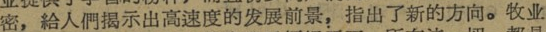密，給人們揭示出高速度的发展前景，指出了新的方向。牧业
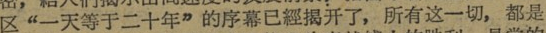区“一天等于二十年”的序幕已經揭开了，所有这一切，都是
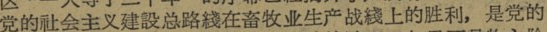党的社会主义建設总路綫在畜牧业生产战綫上的胜利，是党的
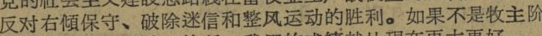反对右傾保守、破除迷信和整风运动的胜利。如果不是牧主阶
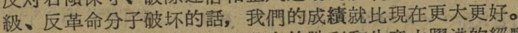級、反革命分子破坏的話，我們的成績就比現在更大更好。
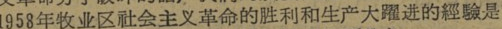1958年牧业区社会主义革命的胜利和生产大躍进的經验是
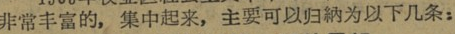非常丰富的，集中起来，主要可以归納为以下几条：
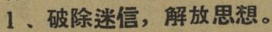1、破除迷信，解放思想。
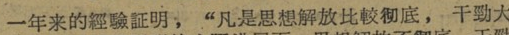一年来的經验証明，“凡是思想解放比較彻底，干勁大
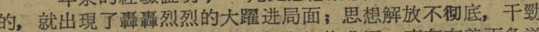的，就出現了轟轟烈烈的大躍进局面；思想解放不彻底，干勁
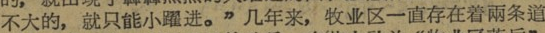不大的，就只能小躍进。” 几年来，牧业区一直存在着兩条道
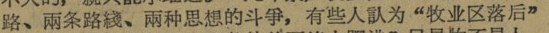路、兩条路綫、兩种思想的斗爭，有些人认为 “牧业区落后”
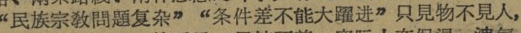“民族宗敎問題复杂” “条件差不能大躍进” 只見物不見人，
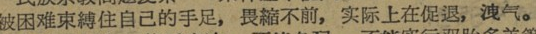被困难束縛住自己的手足，畏縮不前，实际上在促退，洩气。
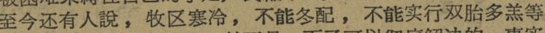至今还有人說，牧区寒冷，不能多配，不能实行多胎多羔等
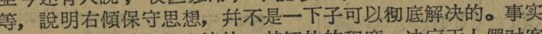等，說明右傾保守思想，并不是一下子可以彻底解决的。事实
